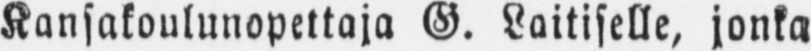Kansakoulunopettaja G. Laitiselle, jonka
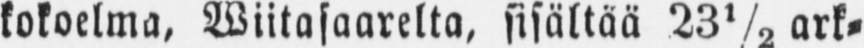kokoelma, Wiitasaarelta, sisältää ark-
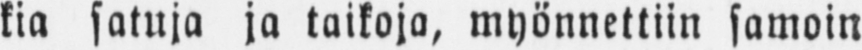kia satuja ja taikoja, myönnettiin samoin
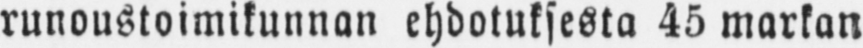runoustoimikunnan ehdotuksesta 45 markan
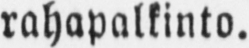rahapalkinto.
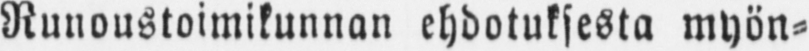Runoustoimikunnan ehdotuksesta myön-
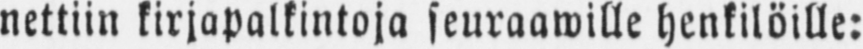nettiin kirjapalkintoja seuraawille henkilöille:
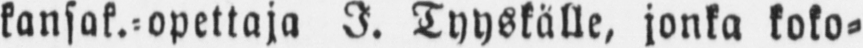kansak.-opettaja I. Tyyskälle, jonka koko-
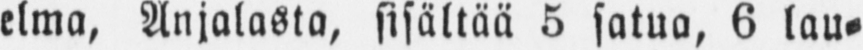elma, Anjalasta, sisältää 5 satua, 6 lau-
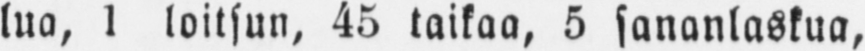lua, 1 loitsun, 45 taikaa, 5 sananlaskua,
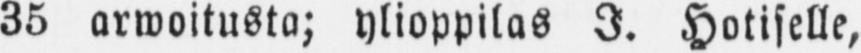35 arwoitusta; ylioppilas I. Hotiselle,
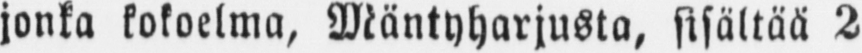jonka kokoelma, Mäntyharjusta, sisältää 2
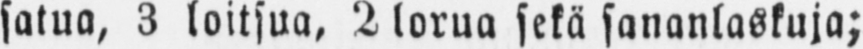satua, 3 loitsua, 2 lorua sekä sananlaskuja;
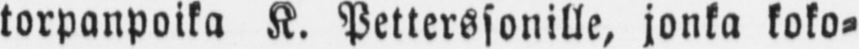torpanpoika K. Petterssonille, jonka koko-
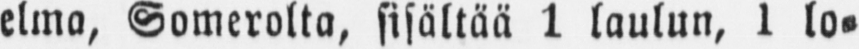elma, Somerolta, sisältää 1 laulun, 1 lo-
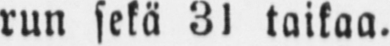run sekä 31 taikaa.
